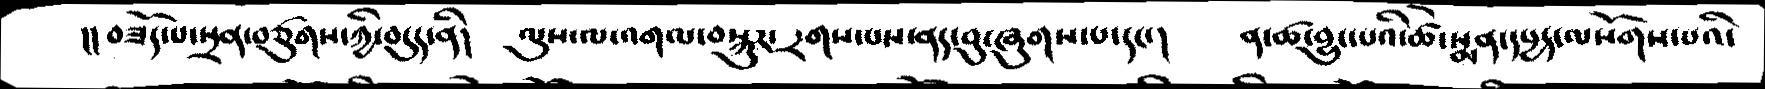།།བཟོད་པ་སྲན་བཙུགས་ཀྱི་བདུད་ནི།    ལུས་ལ་འགལ་བསྐུར་དྲགས་པས་ནད་བུ་ཞུགས་པ་དང་།    ན་ཚ་བྱུང་པའི་ཚེ་སྨན་དཔྱད་ལསོགས་པའི་
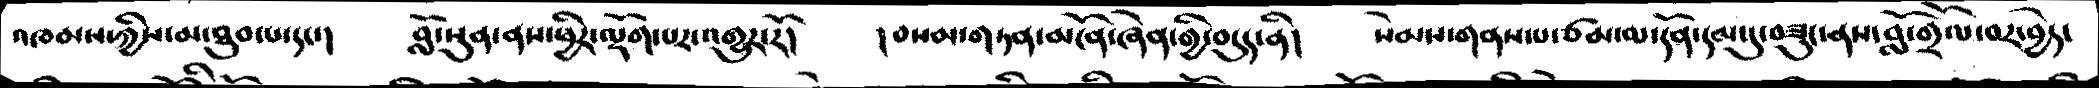འཁམས་ཀྱིས་མ་ཐུབ་པ་དང་།    བློ་སུན་ནས་ཕྱིར་ལྡོག་པར་འགྱུར་རོ།   །བསམ་གཏན་མངོན་ཞེན་གྱི་བདུད་ནི།    སེམས་གནས་པ་ཙམ་ལ་དོན་དམ་དུ་བཟུང་ནས་བློ་གྲོལ་བར་བྱེད་
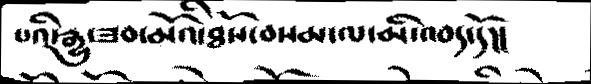པའི་རྒྱུ་ཟབ་མོའི་ཐོས་བསམ་ལ་མི་འབད་དོ།།
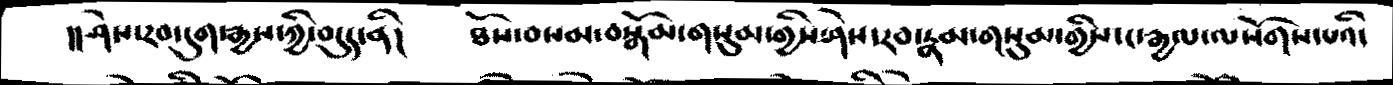།།ཤེས་རབ་དུག་རྒྱས་ཀྱི་བདུད་ནི།     ཐོས་བསམ་བསྒོམ་གསུམ་གྱིས་ཤེས་རབ་རྣམ་གསུམ་གྱིས་ང་རྒྱལ་ལསོགས་པའི་
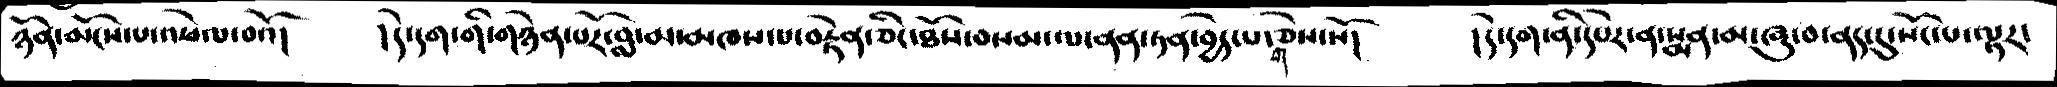ཉོན་མོངས་པ་འཕེལ་བའོ།     །དེ་དག་གི་གཉེན་པོར་བླ་མ་མཁས་པ་བརྟེན་ཅིང་ཐོས་བསམ་ལ་ནན་ཏན་བྱེད་པ་གཅེས་སོ།     །དེ་དག་ནི་དཔེར་ན་སྨན་མ་ཞུ་བ་ནད་དུ་སོང་པ་ལྟར་
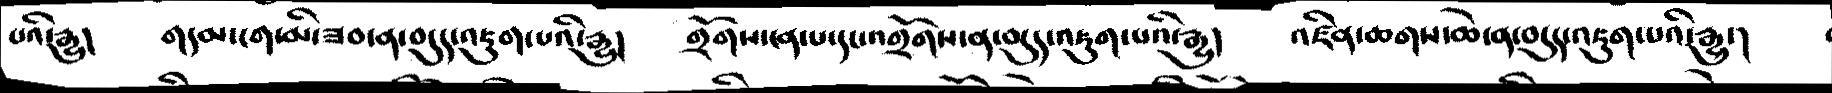པའི་རྒྱུ།    གདམ་ངག་མི་ཟབ་ན་བདུད་འཇུག་པའི་རྒྱུ།    གྲོགས་ངན་པ་དང་འགྲོགས་ན་བདུད་འཇུག་པའི་རྒྱུ།   འཛིན་ཆགས་ཆེ་ན་བདུད་འཇུག་པའི་རྒྱུ་།
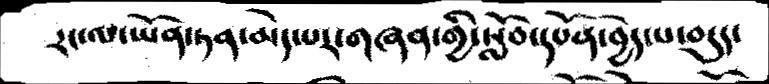རང་ལ་ཡོན་ཏན་མེད་པར་གཞན་གྱི་སློབ་དཔོན་བྱེད་པ་བདུད་
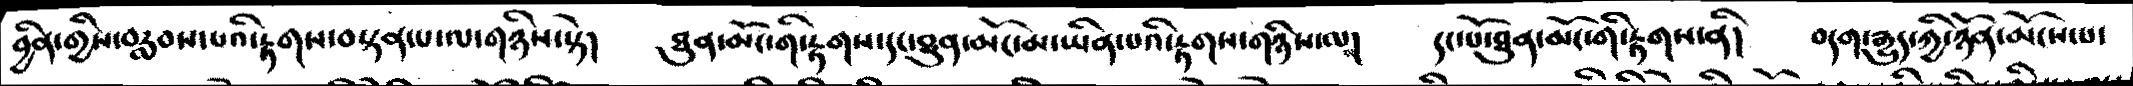བྱིན་གྱིས་བརླབས་པའི་རྟགས་བསྟན་པ་ལ་གཉིས་སྟེ།  ཐུན་མོང་གི་རྟགས་དང་ཐུན་མོང་མ་ཡིན་པའི་རྟགས་གཉིས་ལས།  དང་པོ་ཐུན་མོང་གི་རྟགས་ནི།  བདག་རྒྱུད་ཀྱི་ཉོན་མོངས་པ་
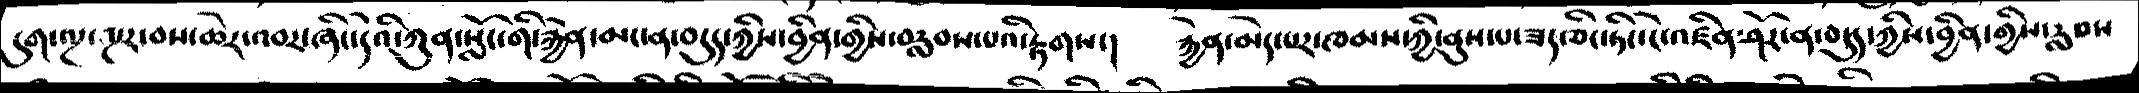དུག་ལྔ་ལྔར་བས་ཆེར་འབར་ཞིང་དེའི་ཀུན་སློང་རྐྱེན་མང་ན་བདུད་ཀྱིས་བྱིན་གྱིས་བརླབས་པའི་རྟགས་།  རྐྱེན་མེད་པར་ཁམས་ཀྱི་ནུས་པ་ཟད་ཅིང་ཏིང་ངེ་འཛིན་ཤོར་ན་བདུད་ཀྱིས་བྱིན་གྱིས་རླབས
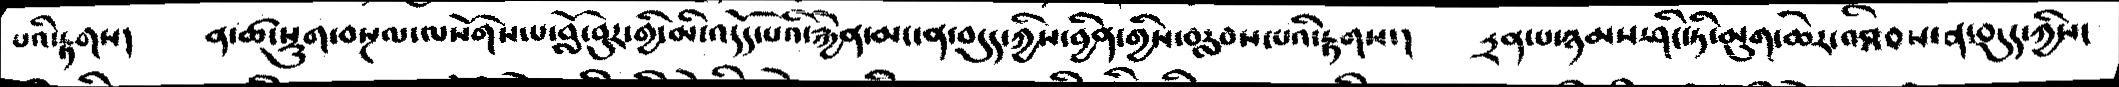པའི་རྟགས།   ན་ཚ་སྡུག་བསྔལ་ལསོགས་པ་བློ་བུར་གྱི་མི་འདོད་པའི་རྐྱེན་མང་ན་བདུད་ཀྱིས་བྱིན་གྱིས་བརླབས་པའི་རྟགས་།   དྲན་པ་ཉམས་ཤིང་ཏི་མུག་ཆེར་འཐིབས་ན་བདུད་ཀྱིས་
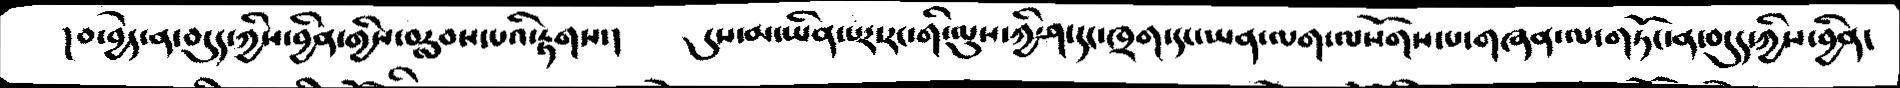།བ་བྱེད་ན་བདུད་ཀྱིས་བྱིན་གྱིས་བརླབས་པའི་རྟགས་།   དུས་མ་ཡིན་པར་རང་གི་ལུས་ཀྱི་ཤ་དང་ཁྲག་དང་ཡན་ལག་ལསོགས་པ་གཞན་ལ་གཏོང་ན་བདུད་ཀྱིས་བྱིན་
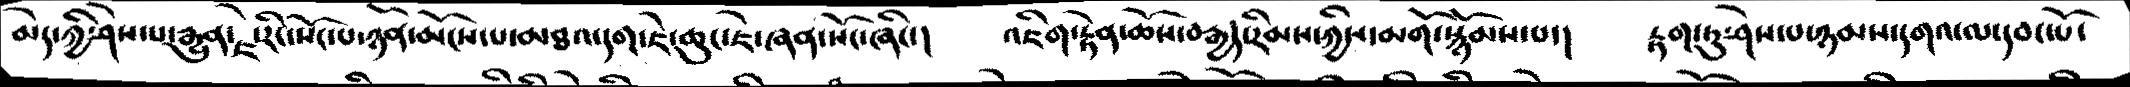མེད་ཀྱི་ཤེས་པ་རྒྱུན་ཇེ་རིང་སོང་པ་ཉོན་མོངས་པ་མཐའ་དག་ཇེ་ཆུང་ཇེ་ཞན་སོང་ཞིང་།    འཇིག་རྟེན་ཆོས་བརྒྱད་རིམས་ཀྱིས་མགོ་སྙོམས་པ་།    རྟག་ཏུ་ཤེས་པ་ཉམས་དགའ་ལ་དབང་པོ་
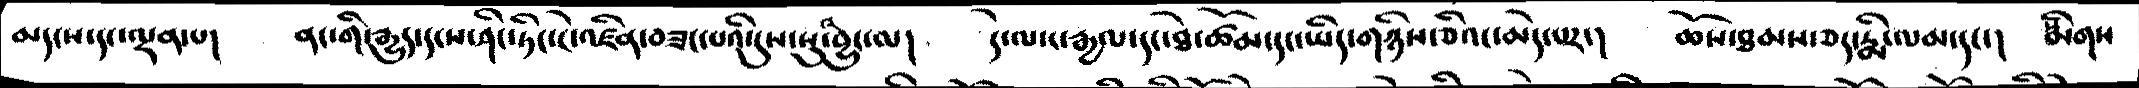མདངས་དང་ལྡན་པ།    ནང་གི་རྒྱུད་དངས་ཤིང་ཏིང་ངེ་འཛིན་བཟང་པའི་དུས་སུ་འབྱུང་ལ།   དེ་ལ་ང་རྒྱལ་དང་ཐེ་ཚོམ་དང་ཡིད་གཉིས་ཅིའང་མེད་པར་།    ཆོས་ཐམས་ཅད་རྨི་ལམ་དང་།   སྨིགས
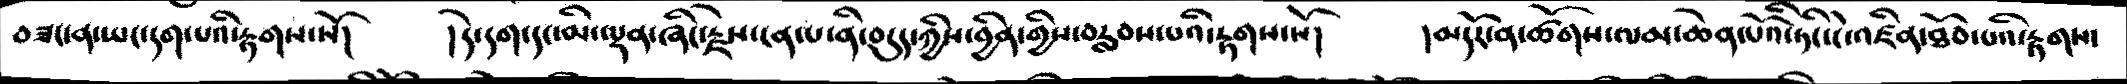བཟང་ན་ཡང་དག་པའི་རྟགས་སོ།    །དེ་དག་དང་མི་ལྡན་ཞིང་རྗེས་ངན་པ་ནི་བདུད་ཀྱིས་བྱིན་གྱིས་བརླབས་པའི་རྟགས་སོ།    །མདོར་ན་ཚོགས་ལམ་ཆེན་པོའི་ཏིང་ངེ་འཛིན་ཐོབ་པའི་རྟགས་
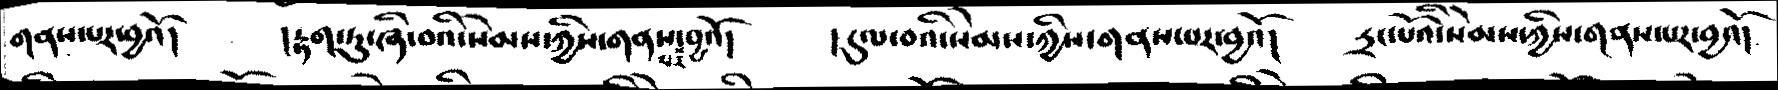གནས་པར་བྱའོ།   །རྟག་ཏུ་ཞི་བའི་སེམས་ཀྱིས་གནས་པར་བྱའོ།  །དུལ་བའི་སེམས་ཀྱིས་གནས་པར་བྱའོ།   དྲང་པོའི་སེམས་ཀྱིས་གནས་པར་བྱའོ།
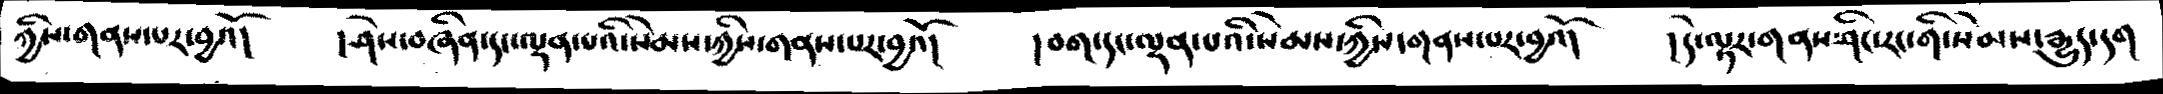ཀྱིས་གནས་པར་བྱའོ།   །ཤེས་བཞིན་དང་ལྡན་པའི་སེམས་ཀྱིས་གནས་པར་བྱའོ་།   །བག་དང་ལྡན་པའི་སེམས་ཀྱིས་གནས་པར་བྱའོ།   །དེ་ལྟར་གནས་ཤིང་རང་གི་སེམས་རྒྱུད་དག
